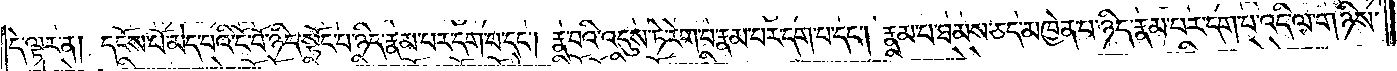དེ་ལྟར་ན། དངོས་པོ་མེད་པའི་ངོ་བོ་ཉིད་སྟོང་པ་ཉིད་རྣམ་པར་དག་པ་དང༌། རྣ་བའི་འདུས་ཏེ་རེག་པ་རྣམ་པར་དག་པ་དང༌། རྣམ་པ་ཐམས་ཅད་མཁྱེན་པ་ཉིད་རྣམ་པར་དག་པ་འདི་ལ་གཉིས་
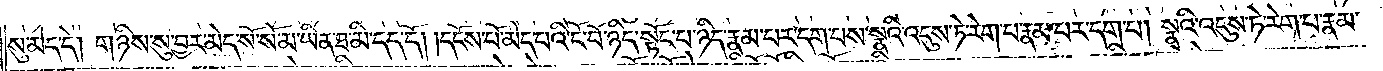སུ་མེད་དེ། གཉིས་སུ་བྱར་མེད་སོ་སོ་མ་ཡིན་ཐ་མི་དད་དོ། །དངོས་པ་མེད་པའི་ངོ་བོ་ཉིད་སྟོང་པ་ཉིད་རྣམ་པར་དག་པས་སྣའི་འདུས་ཏེ་རེག་པ་རྣམ་པར་དག་པ། སྣའི་འདུས་ཏེ་རེག་པ་རྣམ་
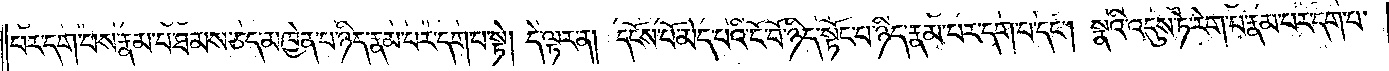པར་དག་པས་རྣམ་པ་ཐམས་ཅད་མཁྱེན་པ་ཉིད་རྣམ་པར་དག་པ་སྟེ། དེ་ལྟར་ན། དངོས་པོ་མེད་པའི་ངོ་བོ་ཉིད་སྟོང་པ་ཉིད་རྣམ་པར་དག་པ་དང༌། སྣའི་འདུས་ཏེ་རེག་པ་རྣམ་པར་དག་པ་
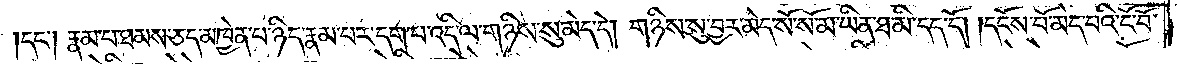དང༌། རྣམ་པ་ཐམས་ཅད་མཁྱེན་པ་ཉིད་རྣམ་པར་དག་པ་འདི་ལ་གཉིས་སུ་མེད་དེ། གཉིས་སུ་བྱར་མེད་སོ་སོ་མ་ཡིན་ཐ་མི་དད་དོ། །དངོས་པོ་མེད་པའི་ངོ་བོ་
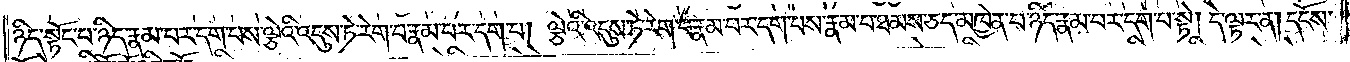ཉིད་སྟོང་པ་ཉིད་རྣམ་པར་དག་པས་ལྕེའི་འདུས་ཏེ་རེག་པ་རྣམ་པར་དག་པ། ལྕེའི་འདུས་ཏེ་རེག་པ་རྣམ་པར་དག་པས་རྣམ་པ་ཐམས་ཅད་མཁྱེན་པ་ཉིད་རྣམ་པར་དག་པ་སྟེ། དེ་ལྟར་ན། དངོས་
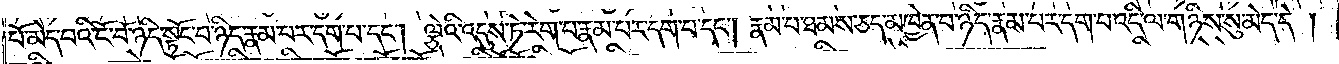པོ་མེད་པའི་ངོ་བོ་ཉིད་སྟོང་པ་ཉིད་རྣམ་པར་དག་པ་དང༌། ལྕེའི་འདུས་ཏེ་རེག་པ་རྣམ་པར་དག་པ་དང༌། རྣམ་པ་ཐམས་ཅད་མཁྱེན་པ་ཉིད་རྣམ་པར་དག་པ་འདི་ལ་གཉིས་སུ་མེད་དེ།
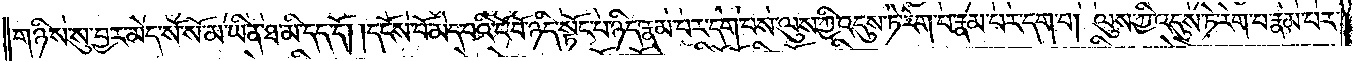གཉིས་སུ་བྱར་མེད་སོ་སོ་མ་ཡིན་ཐ་མི་དད་དོ། །དངོས་པོ་མེད་པའི་ངོ་བོ་ཉིད་སྟོང་པ་ཉིད་རྣམ་པར་དག་པས་ལུས་ཀྱི་འདུས་ཏེ་རེག་པ་རྣམ་པར་དག་པ། ལུས་ཀྱི་འདུས་ཏེ་རེག་པ་རྣམ་པར་
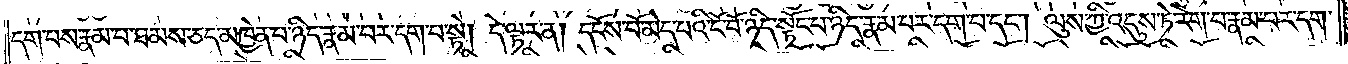དག་པས་རྣམ་པ་ཐམས་ཅད་མཁྱེན་པ་ཉིད་རྣམ་པར་དག་པ་སྟེ། དེ་ལྟར་ན། དངོས་པོ་མེད་པའི་ངོ་བོ་ཉིད་སྟོང་པ་ཉིད་རྣམ་པར་དག་པ་དང༌། ལུས་ཀྱི་འདུས་ཏེ་རེག་པ་རྣམ་པར་དག་
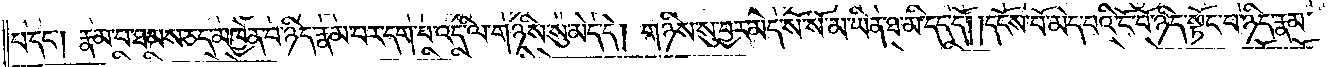པ་དང༌། རྣམ་པ་ཐམས་ཅད་མཁྱེན་པ་ཉིད་རྣམ་པར་དག་པ་འདི་ལ་གཉིས་སུ་མེད་དེ། གཉིས་སུ་བྱར་མེད་སོ་སོ་མ་ཡིན་ཐ་མི་དད་དོ། །དངོས་པོ་མེད་པའི་ངོ་བོ་ཉིད་སྟོང་པ་ཉིད་རྣམ་
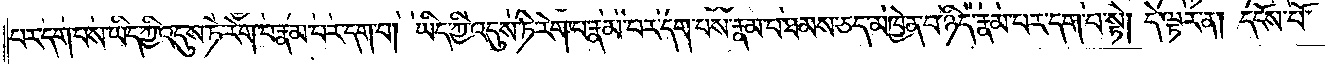པར་དག་པས་ཡིད་ཀྱི་འདུས་ཏེ་རེག་པ་རྣམ་པར་དག་པ། ཡིད་ཀྱི་འདུས་ཏེ་རེག་པ་རྣམ་པར་དག་པས་རྣམ་པ་ཐམས་ཅད་མཁྱེན་པ་ཉིད་རྣམ་པར་དག་པ་སྟེ། དེ་ལྟར་ན། དངོས་པོ་
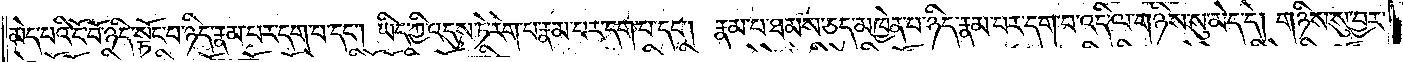མེད་པའི་ངོ་བོ་ཉིད་སྟོང་པ་ཉིད་རྣམ་པར་དག་པ་དང༌། ཡིད་ཀྱི་འདུས་ཏེ་རེག་པ་རྣམ་པར་དག་པ་དང༌། རྣམ་པ་ཐམས་ཅད་མཁྱེན་པ་ཉིད་རྣམ་པར་དག་པ་འདི་ལ་གཉིས་སུ་མེད་དེ། གཉིས་སུ་བྱར་
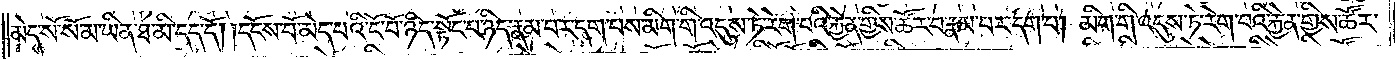མེད་སོ་སོ་མ་ཡིན་ཐ་མི་དད་དོ། །དངོས་པོ་མེད་པའི་ངོ་བོ་ཉིད་སྟོང་པ་ཉིད་རྣམ་པར་དག་པས་མིག་གི་འདུས་ཏེ་རེག་པའི་རྐྱེན་གྱིས་ཚོར་བ་རྣམ་པར་དག་པ། མིག་གི་འདུས་ཏེ་རེག་པའི་རྐྱེན་གྱིས་ཚོར་
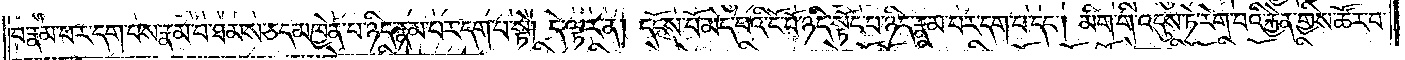བ་རྣམ་པར་དག་པས་རྣམ་པ་ཐམས་ཅད་མཁྱེན་པ་ཉིད་རྣམ་པར་དག་པ་སྟེ། དེ་ལྟར་ན། དངོས་པོ་མེད་པའི་ངོ་བོ་ཉིད་སྟོང་པ་ཉིད་རྣམ་པར་དག་པ་དང༌། མིག་གི་འདུས་ཏེ་རེག་པའི་རྐྱེན་གྱིས་ཚོར་བ་
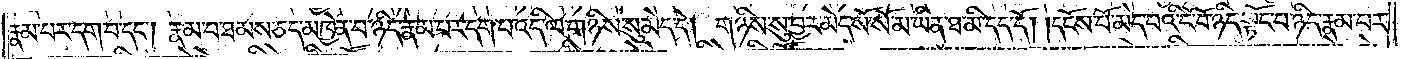རྣམ་པར་དག་པ་དང༌། རྣམ་པ་ཐམས་ཅད་མཁྱེན་པ་ཉིད་རྣམ་པར་དག་པ་འདི་ལ་གཉིས་སུ་མེད་དེ། གཉིས་སུ་བྱར་མེད་སོ་སོ་མ་ཡིན་ཐ་མི་དད་དོ། །དངོས་པོ་མེད་པའི་ངོ་བོ་ཉིད་སྟོང་པ་ཉིད་རྣམ་པར་
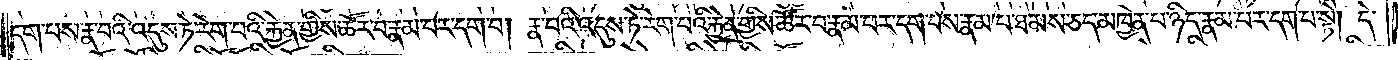དག་པས་རྣ་བའི་འདུས་ཏེ་རེག་པའི་རྐྱེན་གྱིས་ཚོར་བ་རྣམ་པར་དག་པ། རྣ་བའི་འདུས་ཏེ་རེག་པའི་རྐྱེན་གྱིས་ཚོར་བ་རྣམ་པར་དག་པས་རྣམ་པ་ཐམས་ཅད་མཁྱེན་པ་ཉིད་རྣམ་པར་དག་པ་སྟེ། དེ་
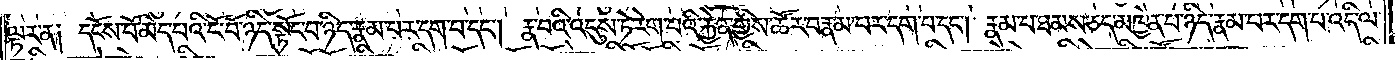ལྟར་ན༑ དངོས་པོ་མེད་པའི་ངོ་བོ་ཉིད་སྟོང་པ་ཉིད་རྣམ་པར་དག་པ་དང༌། རྣ་བའི་འདུས་ཏེ་རེག་པའི་རྐྱེན་གྱིས་ཚོར་བ་རྣམ་པར་དག་པ་དང༌། རྣམ་པ་ཐམས་ཅད་མཁྱེན་པ་ཉིད་རྣམ་པར་དག་པ་འདི་ལ་
